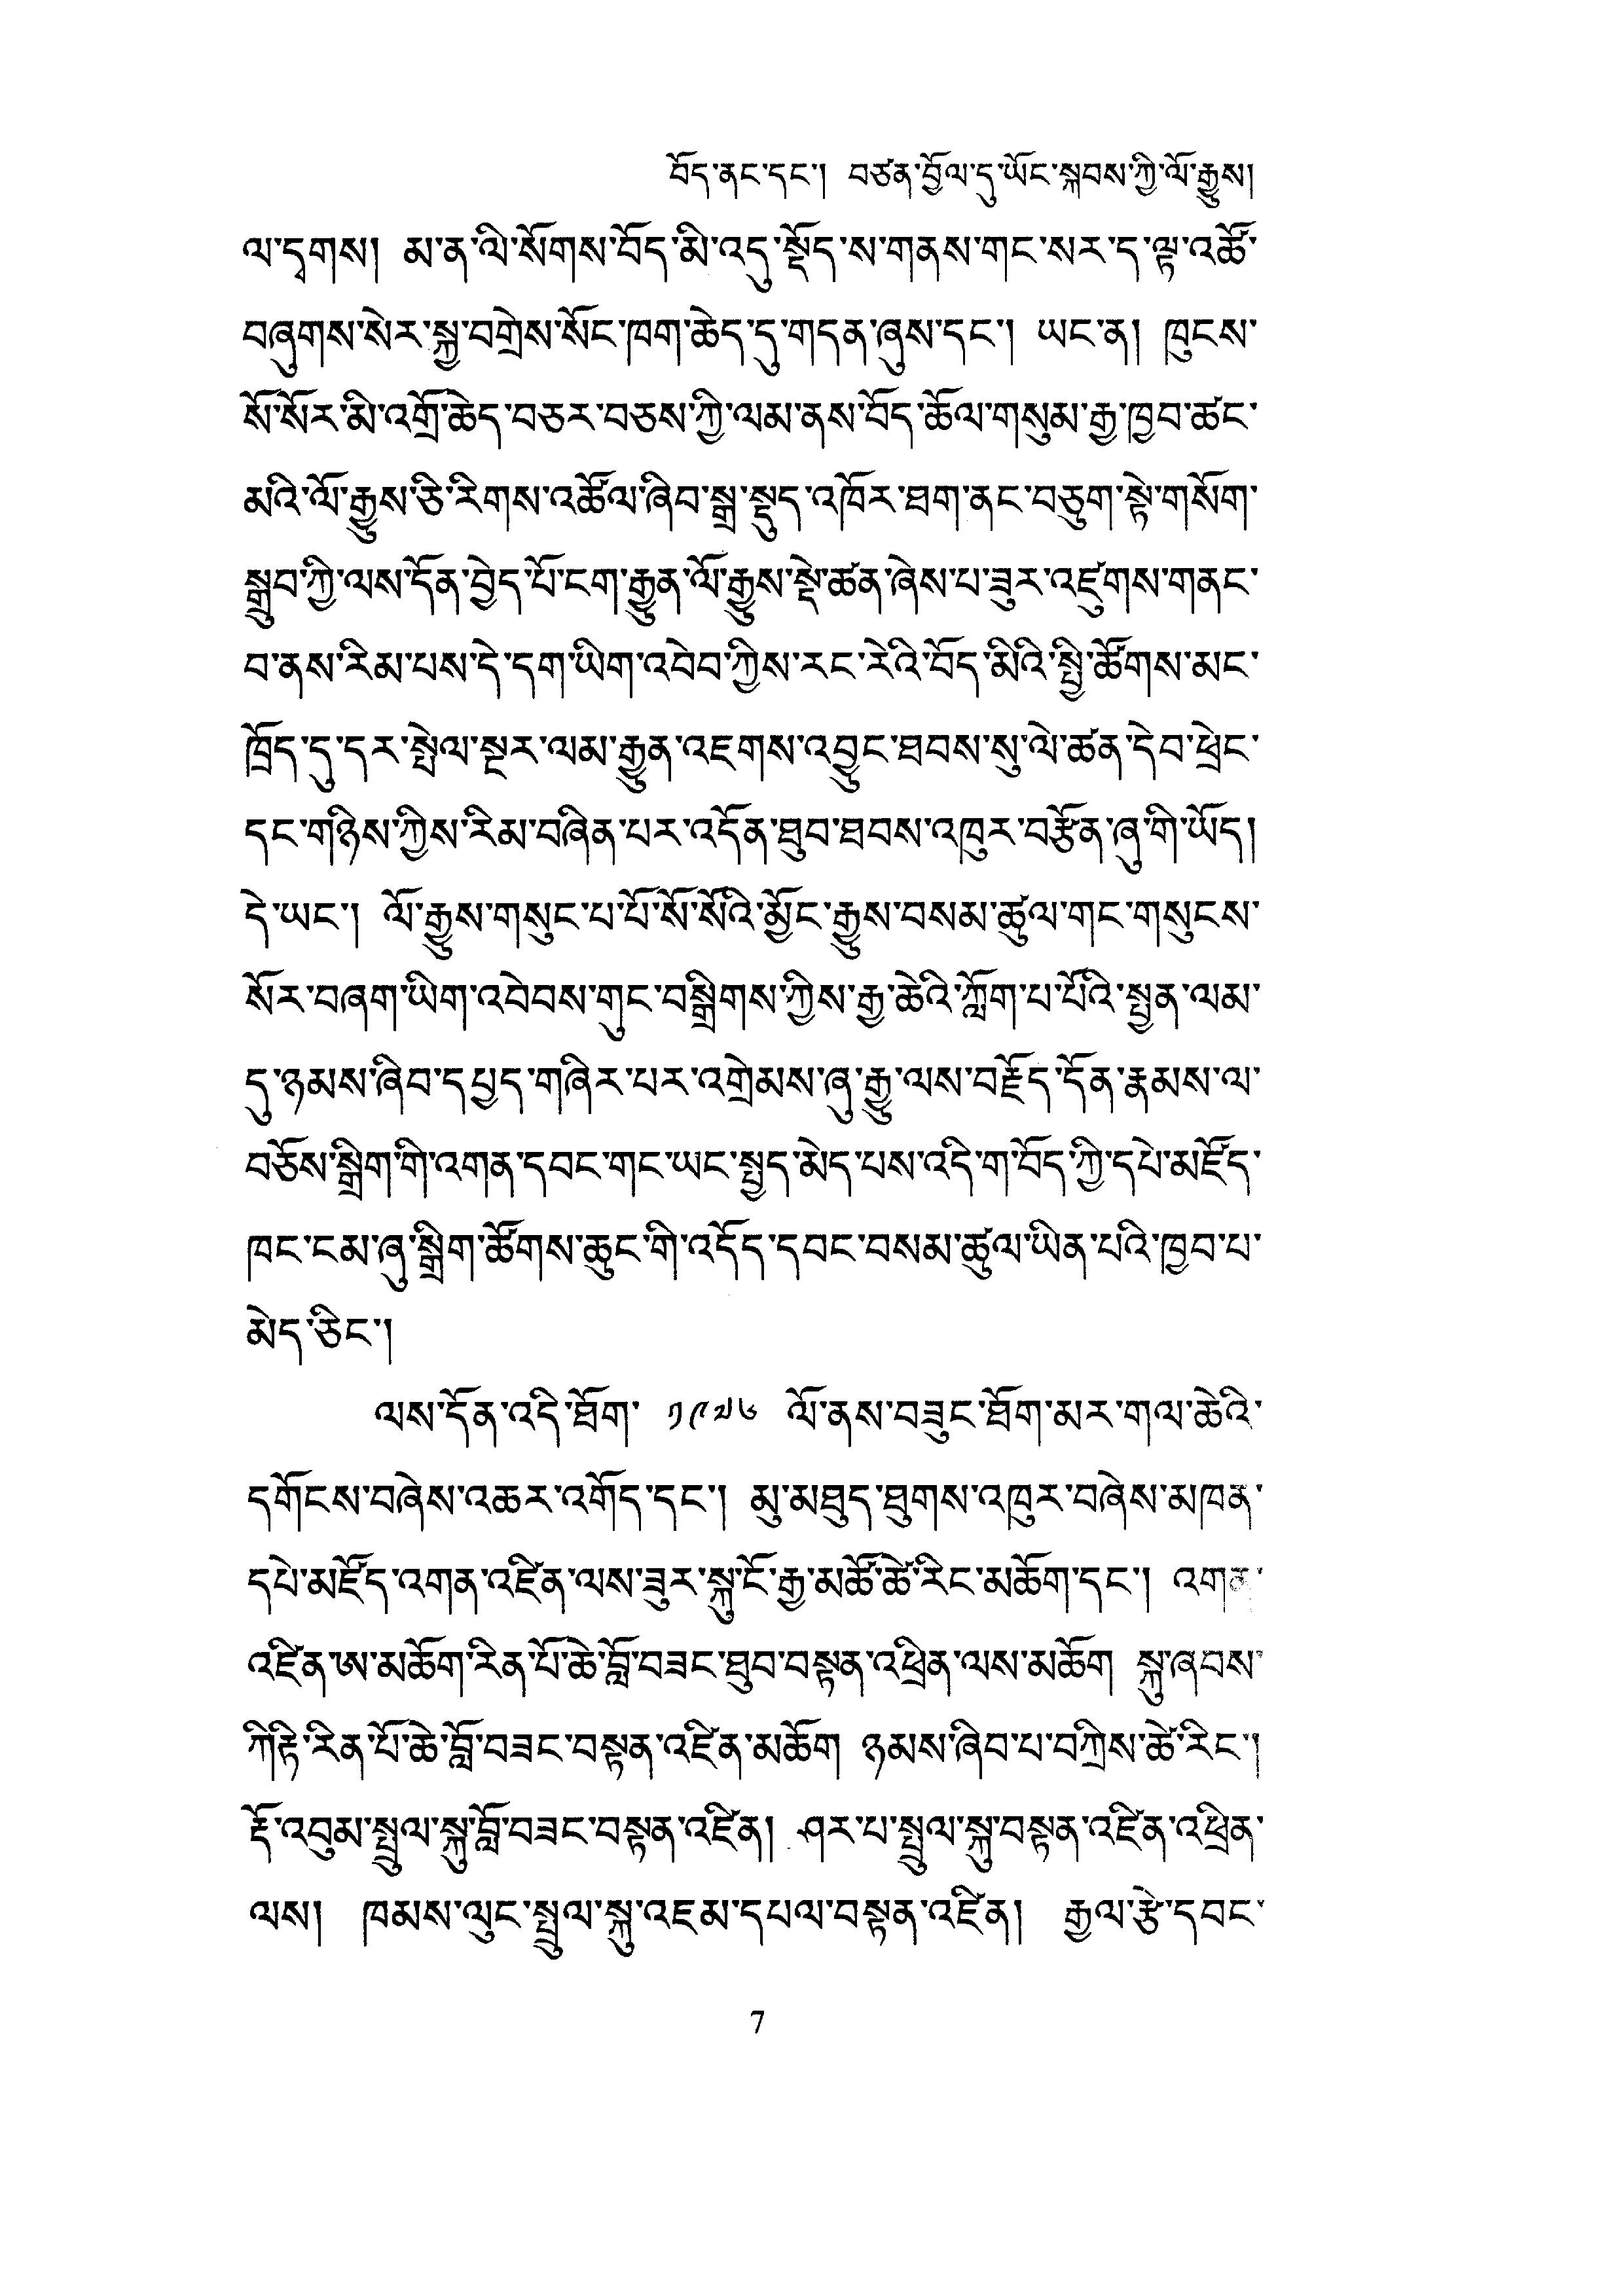བོད་ནང་དང་། བཙན་བྱོལ་དུ་ཡོང་སྐབས་ཀྱི་ལོ་རྒྱུས།
ལ་དྭགས། མ་ན་ལི་སོགས་བོད་མི་འདུ་སྡོད་ས་གནས་གང་སར་ད་ལྟ་འཚོ་
བཞུགས་སེར་སྐྱ་བགྲེས་སོང་ཁག་ཆེད་དུ་གདན་ཞུས་དང་། ཡང་ན། ཁུངས་
སོ་སོར་མི་འགྲོ་ཆེད་བཅར་བཅས་ཀྱི་ལམ་ནས་བོད་ཆོལ་གསུམ་རྒྱ་ཁྱབ་ཚང་
མའི་ལོ་རྒྱུས་ཅི་རིགས་འཚོལ་ཞིབ་སྒྲ་སྡུད་འཁོར་ཐག་ནང་བཅུག་སྟེ་གསོག་
སྒྲུབ་ཀྱི་ལས་དོན་བྱེད་པོ་ངག་རྒྱུན་ལོ་རྒྱུས་སྡེ་ཚན་ཞེས་པ་ཟུར་འཛུགས་གནང་
བ་ནས་རིམ་པས་དེ་དག་ཡིག་འབེབ་ཀྱིས་རང་རེའི་བོད་མིའི་སྤྱི་ཚོགས་མང་
ཁྲོད་དུ་དར་སྤེལ་སྔར་ལམ་རྒྱུན་འཇགས་འབྱུང་ཐབས་སུ་ལེ་ཚན་དེབ་ཕྲེང་
དང་གཉིས་ཀྱིས་རིམ་བཞིན་པར་འདོན་ཐུབ་ཐབས་འཁུར་བརྩོན་ཞུ་གི་ཡོད།
དེ་ཡང་། ལོ་རྒྱུས་གསུང་པ་པོ་སོ་སོའི་མྱོང་རྒྱུས་བསམ་ཚུལ་གང་གསུངས་
སོར་བཞག་ཡིག་འབེབས་གུང་བསྒྲིགས་ཀྱིས་རྒྱ་ཆེའི་ཀློག་པ་པོའི་སྤྱན་ལམ་
དུ་ཞམས་ཞིབ་དཔྱད་གཞིར་པར་འགྲེམས་ཞུ་རྒྱུ་ལས་བརྗོད་དོན་རྣམས་ལ་
བཅོས་སྒྲིག་གི་འགན་དབང་གང་ཡང་སྤྱད་མེད་པས་འདི་གབོད་ཀྱི་དཔེ་མཛོད།
ཁང་ངམ་ཞུ་སྒྲིག་ཚོགས་ཆུང་གི་འདོད་དབང་བསམ་ཚུལ་ཡིན་པའི་ཁྱབ་པ་་
མེད་ཅིང་།
ལས་དོན་འདི་ཐོག་ ༡༩༧༦ ལོ་ནས་བཟུང་ཐོག་མར་གལ་ཆེའི་
དགོངས་བཞེས་འཆར་འགོད་དང་། མུ་མཐུད་ཕུགས་འཁུར་བཞེས་མཁན་
དཔེ་མཛོད་འགན་འཛིན་ལས་ཟུར་སྐུ་ངོ་རྒྱ་མཚོ་ཚེ་རིང་མཆོག་དང་། འགན་
འཛིན་ཨ་མཆོག་རིན་པོ་ཆེ་བློ་བཟང་ཐུབ་བསྟན་འཕྲིན་ལས་མཆོག སྐུ་ཞབས་
ཀིརྟི་རིན་པོ་ཆེ་བློ་བཟང་བསྟན་འཛིན་མཆོག ཉམས་ཞིབ་པ་བཀྲིས་ཚེ་རིང་།
རྡོ་འབུམ་སྤྲུལ་སྐུ་བློ་བཟང་བསྟུན་འཛིན། ཤར་པ་སྤྲུལ་སྐུ་བསྟན་འཛིན་འཕྲིན་
ལས། ཁམས་ལུང་སྤྲུལ་སྐུ་འཇམ་དཔལ་བསྟུན་འཛི་ན། རྒྱལ་རྩེ་དབང་
7
